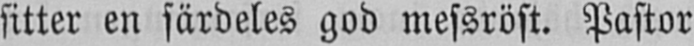sitter en särdeles god messröst. Pastor
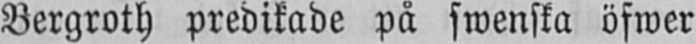Bergroth predikade på swenska öfwer
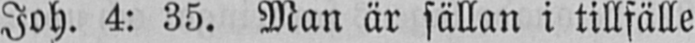Joh. 4: 35. Man är sällan i tillfälle
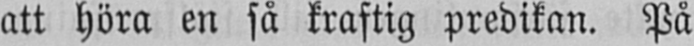att höra en så kraftig predikan. På
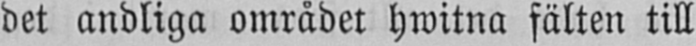det andliga området hwitna fälten till
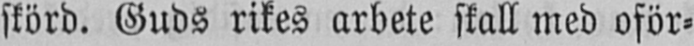skörd. Guds rikes arbete skall med oför-
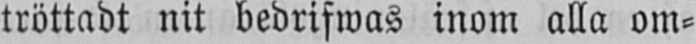tröttadt nit bedrifwas inom alla om-
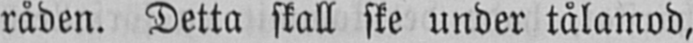råden. Detta skall ske under tålamod,
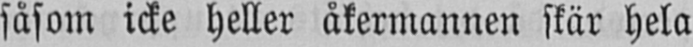såsom icke heller åkermannen skär hela
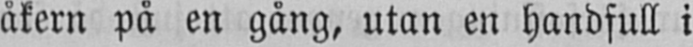åkern på en gång, utan en handfull i
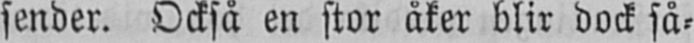sender. Också en stor åker blir dock så-
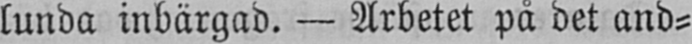lunda inbärgad. — Arbetet på det and-
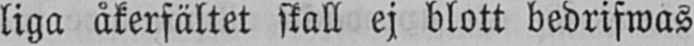liga åkerfältet skall ej blott bedrifwas
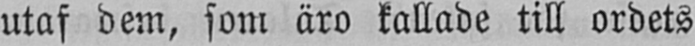utaf dem, som äro kallade till ordets
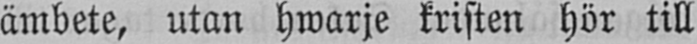ämbete, utan hwarje kristen hör till
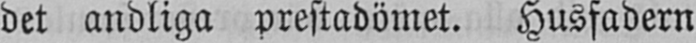det andliga prestadömet. Husfadern
